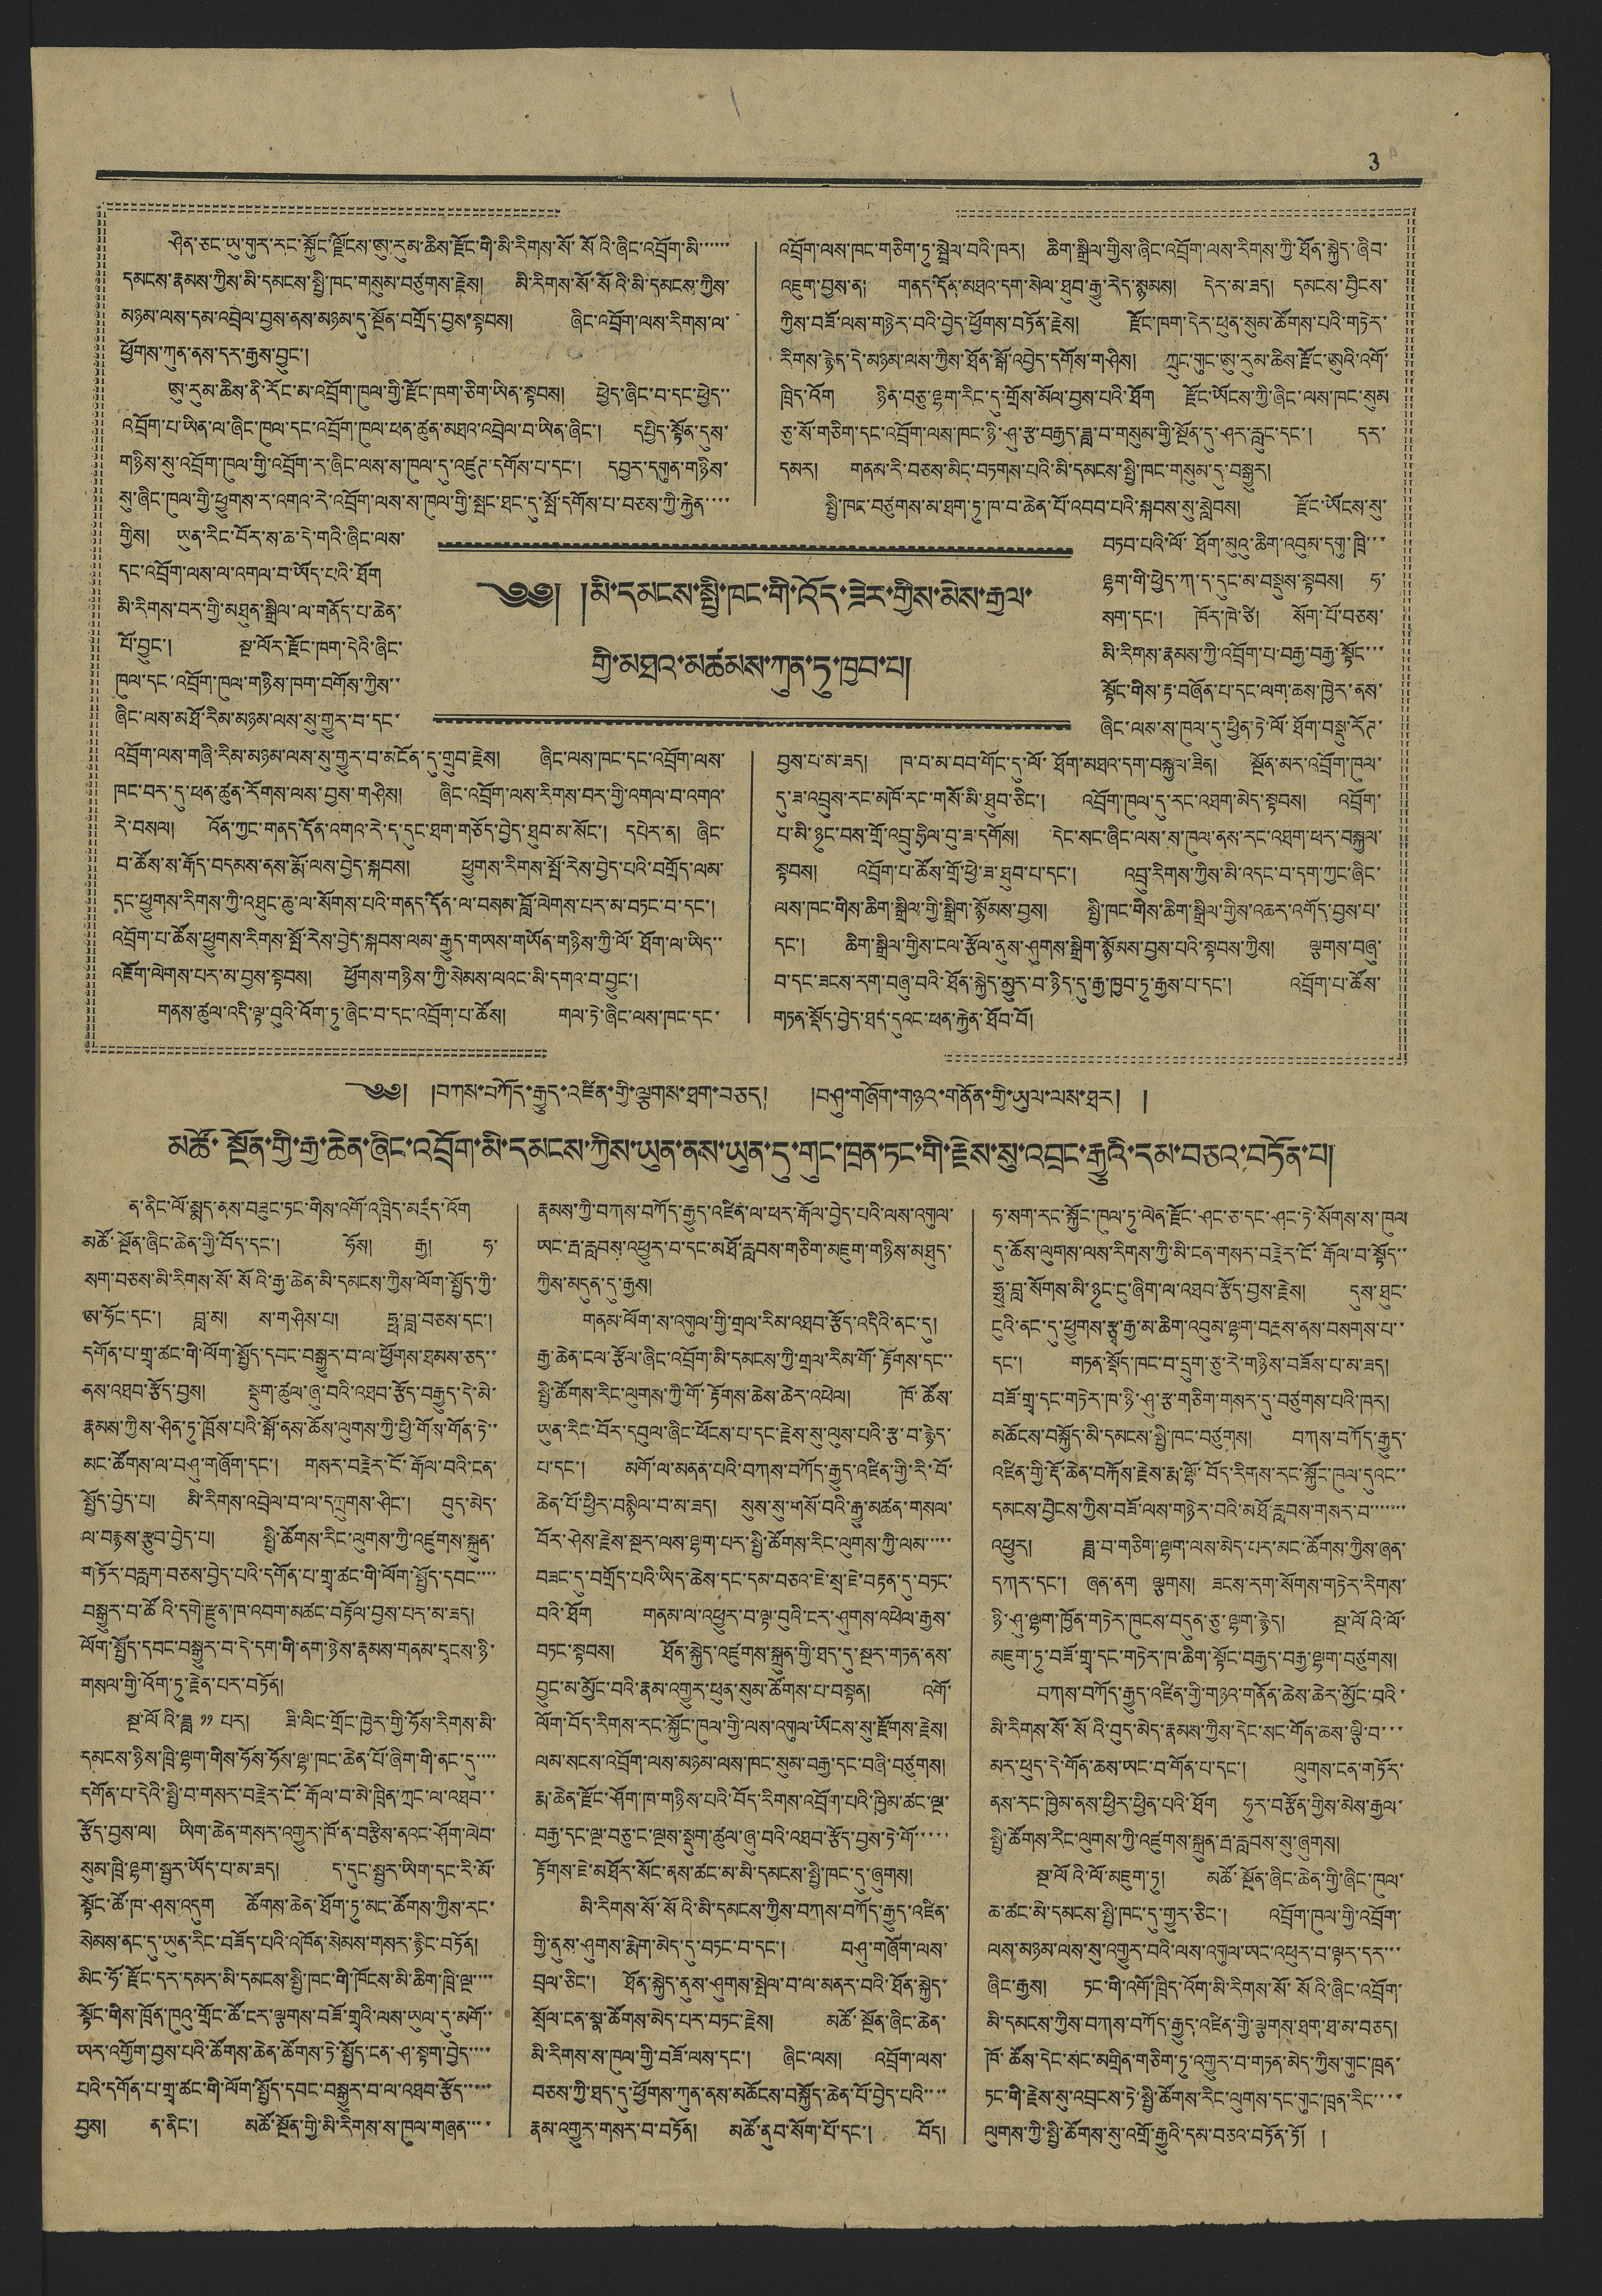3
༄༅། །མི་དམངས་སྤྱི་ཁང་གི་འོད་ཟེར་གྱིས་མེས་རྒྱལ་
གྱི་མཐའ་མཚམས་ཀུན་ཏུ་ཁྱབ་པ།
ཤིན་ཅང་ཨུ་གུར་རང་སྐྱོང་ལྗོངས་ཨུ་རུམ་ཆིས་རྫོང་གི་མི་རིགས་སོ་སོའི་ཞིང་འབྲོག་མི་་་་་་
དམངས་རྣམས་ཀྱིས་མི་དམངས་སྤྱི་ཁང་གསུམ་བཙུགས་རྗེས། མི་རིགས་སོ་སོའི་མི་དམངས་ཀྱིས་
མཉམ་ལས་དམ་འབྲེལ་བྱས་ནས་མཉམ་དུ་སྔོན་བགྲོད་བྱས་སྟབས། ཞིང་འབྲོག་ལས་རིགས་ལ་
ཕྱོགས་ཀུན་ནས་དར་རྒྱས་བྱུང་།
ཨུ་རུམ་ཆིས་ནི་རོང་མ་འབྲོག་ཁུལ་གྱི་རྫོང་ཁག་ཅིག་ཡིན་སྟབས། ཕྱེད་ཞིང་བ་དང་ཕྱེད་་
འབྲོག་པ་ཡིན་ལ་ཞིང་ཁུལ་དང་འབྲོག་ཁུལ་ཕན་ཚུན་མཐའ་འབྲེལ་བ་ཡིན་ཞིང་། དཔྱིད་སྟོན་དུས་
གཉིས་སུ་འབྲོག་ཁུལ་གྱི་འབྲོག་ར་ཞིང་ལས་ས་ཁུལ་དུ་འཛུཊ་དགོས་པ་དང་། དབྱར་དགུན་གཉིས་
སུ་ཞིང་ཁུལ་གྱི་ཕྱུགས་ར་འགའ་རེ་འབྲོག་ལས་ས་ཁུལ་གྱི་སྤང་ཐང་དུ་སྤོ་དགོས་པ་བཅས་ཀྱི་རྐྱེན་་་་
གྱིས། ཡུན་རིང་བོར་ས་ཆ་དེ་གའི་ཞིང་ལས་
དང་འབྲོག་ལས་ལ་འགལ་བ་ཡོད་པའི་ཐོག
མི་རིགས་བར་གྱི་མཐུན་སྒྲིལ་ལ་གནོད་པ་ཆེན་
པོ་བྱུང་། སྔ་ལོར་རྫོང་ཁག་དེའི་ཞིང་
ཁུལ་དང་འབྲོག་ཁུལ་གཉིས་ཁག་བགོས་ཀྱིས་་
ཞིང་ལས་མཐོ་རིམ་མཉམ་ལས་སུ་གྱུར་བ་དང་
འབྲོག་ལས་གཞི་རིམ་མཉམ་ལས་སུ་གྱུར་བ་མངོན་དུ་གྲུབ་རྗེས། ཞིང་ལས་ཁང་དང་འབྲོག་ལས་
ཁང་བར་དུ་ཕན་ཚུན་རོགས་ལས་བྱས་གཤིས། ཞིང་འབྲོག་ལས་རིགས་བར་གྱི་འགལ་བ་འགའ་
རེ་བསལ། འོན་ཀྱང་གནད་དོན་འགའ་རེ་ད་དུང་ཐག་གཅོད་བྱེད་ཐུབ་མ་སོང་། དཔེར་ན། ཞིང་
བ་ཚོས་ས་རྒོད་བདམས་ནས་རྨོ་ལས་བྱེད་སྐབས། ཕྱུགས་རིགས་སྤོ་རེས་བྱེད་པའི་བགྲོད་ལམ་
དང་ཕྱུགས་རིགས་ཀྱི་འཐུང་ཆུ་ལ་སོགས་པའི་གནད་དོན་ལ་བསམ་བློ་ལེགས་པར་མ་བཏང་བ་དང་།
འབྲོག་པ་ཚོས་ཕྱུགས་རིགས་སྤོ་རེས་བྱེད་སྐབས་ལམ་རྒྱུད་གཡས་གཡོན་གཉིས་ཀྱི་ལོ་ཐོག་ལ་ཡིད་་
འཇོག་ལེགས་པར་མ་བྱས་སྟབས། ཕྱོགས་གཉིས་ཀྱི་སེམས་ལའང་མི་དགའ་བ་བྱུང་།
གནས་ཚུལ་འདི་ལྟ་བུའི་འོག་ཏུ་ཞིང་བ་དང་འབྲོག་པ་ཚོས། གལ་ཏེ་ཞིང་ལས་ཁང་དང་
འབྲོག་ལས་ཁང་གཅིག་ཏུ་སྦྲེལ་བའི་ཁར། ཆིག་སྒྲིལ་གྱིས་ཞིང་འབྲོག་ལས་རིགས་ཀྱི་ཐོན་སྐྱེད་ཞིབ་
འཇུག་བྱས་ན། གནད་དོན་མཐའ་དག་སེལ་ཐུབ་རྒྱུ་རེད་སྙམས། དེར་མ་ཟད། དམངས་བྱིངས་
ཀྱིས་བཟོ་ལས་གཉེར་་བའི་བྱེད་ཕྱོགས་བཏོན་རྗེས། རྫོང་ཁག་དེར་ཕུན་སུམ་ཚོགས་པའི་གཏེར་
རིགས་རྙེད་དེ་མཉམ་ལས་ཀྱིས་ཐོན་སྒོ་འབྱེད་དགོས་གཤིས། ཀྲུང་གུང་ཨུ་རུམ་ཆིས་རྫོང་ཨུའི་འགོ་
ཁྲིད་འོག ཉིན་བཅུ་ལྷག་རིང་དུ་གྲོས་མོལ་བྱས་པའི་ཐོག རྫོང་ཡོངས་ཀྱི་ཞིང་ལས་ཁང་སུམ
ཅུ་སོ་གཅིག་དང་འབྲོག་ལས་ཁང་ཉི་ཤུ་རྩ་བརྒྱད་ཟླ་བ་གསུམ་གྱི་སྔོན་དུ་ཤར་རླུང་དང་། དར་
དམར། གནམ་རི་བཅས་མིང་བཏགས་པའི་མི་དམངས་སྤྱི་ཁང་གསུམ་དུ་བསྒྱུར།
སྤྱི་ཁང་བཙུགས་མ་ཐག་ཏུ་ཁ་བ་ཆེན་པོ་འབབ་པའི་སྐབས་སུ་སླེབས། རྫོང་ཡོངས་སུ་
བཏབ་པའི་ལོ་ཐོག་མུའུ་ཆིག་འབུམ་དགུ་ཁྲི་་་
ལྷག་གི་ཕྱེད་ཀ་ད་དུང་མ་བསྡུས་སྟབས། ཧ་
སག་དང་། ཁོར་ཁེ་ཙི། སོག་པོ་བཅས་
མི་རིགས་རྣམས་ཀྱི་འབྲོག་པ་བརྒྱ་བརྒྱ་སྟོང་་་
སྟོང་གིས་རྟ་བཞོན་པ་དང་ལག་ཆས་ཁྱེར་ནས་
ཞིང་ལས་ས་ཁུལ་དུ་ཕྱིན་ཏེ་ལོ་ཐོག་བསྡུ་རོཊ་
བྱས་པ་མ་ཟད། ཁ་བ་མ་བབ་གོང་དུ་ལོ་ཐོག་མཐའ་དག་བསྐྱལ་ཟིན། སྔོན་མར་འབྲོག་ཁུལ་
དུ་ཟ་འབྲུས་རང་མཁོ་རང་གསོ་མི་ཐུབ་ཅིང་། འབྲོག་ཁུལ་དུ་རང་འཐག་མེད་སྟབས། འབྲོག་
པ་མི་ཉུང་བས་གྲོ་འབྲུ་ཧྲིལ་བུ་ཟ་དགོས། དེང་སང་ཞིང་ལས་ས་ཁུལ་ནས་རང་འཐག་ཕར་བསྐྱལ་
སྟབས། འབྲོག་པ་ཚོས་གྲོ་ཕྱེ་ཟ་ཐུབ་པ་དང་། འབྲུ་རིགས་ཀྱིས་མི་འདང་བ་དག་ཀྱང་ཞིང་
ལས་ཁང་གིས་ཆིག་སྒྲིལ་གྱི་སྒྲིག་སྙོམས་བྱས། སྤྱི་ཁང་གིས་ཆིག་སྒྲིལ་གྱིས་འཆར་འགོད་བྱས་པ་
དང་། ཆིག་སྒྲིལ་གྱིས་ངལ་རྩོལ་ནུས་ཤུགས་སྒྲིག་སྙོམས་བྱས་པའི་སྟབས་ཀྱིས། ལྕགས་བཞུ་
བ་དང་ཟངས་རག་བཞུ་བའི་ཐོན་སྐྱེད་མྱུར་བ་ཉིད་དུ་རྒྱ་ཁྱབ་ཏུ་རྒྱས་པ་དང་། འབྲོག་པ་ཚོས་
གཏན་སྡོད་བྱེད་ཐད་དུའང་ཕན་རྐྱེན་ཐོབ་བོ།
༄༅། །བཀས་བཀོད་རྒྱུད་འཛིན་གྱི་ལྕགས་ཐག་བཅད། །བཤུ་གཞོག་གཉའ་གནོན་གྱི་ཡུལ་ལས་ཐར། །
མཚོ་སྔོན་གྱི་རྒྱ་ཆེན་ཞིང་འབྲོག་མི་དམངས་ཀྱིས་ཡུན་ནས་ཡུན་དུ་གུང་ཁྲན་ཏང་གི་རྗེས་སུ་འབྲང་རྒྱུའི་དམ་བཅའ་བཏོན་པ།
ན་ནིང་ལོ་སྨད་ནས་བཟུང་ཏང་གིས་འོག་འཁྲིད་མཛད་འོག
མཚོ་སྔོན་ཞིང་ཆེན་གྱི་བོད་དང་། ཧོས། རྒྱ། ཧ་
སག་བཅས་མི་རིགས་སོ་སོའི་རྒྱ་ཆེན་མི་དམངས་ཀྱིས་ལོག་སྤྱོད་ཀྱི་
ཨ་ཧོང་དང་། བླ་མ། ས་གཤིས་པ། ཧྥ་བླ་བཅས་དང་།
དགོན་པ་གྲྭ་ཚང་གི་ལོག་སྤྱོད་དབང་བསྒྱུར་བ་ལ་ཕྱོགས་ཐམས་ཅད་་
ནས་འཐབ་རྫོད་བྱས། སྡུག་ཚུལ་ཞུ་བའི་འཐབ་རྩོད་བརྒྱུད་དེ་མི་
རྣམས་ཀྱིས་ཤིན་ཏུ་ཁྲོས་པའི་སྒོ་ནས་ཆོས་ལུགས་ཀྱི་ཕྱི་གོས་གོན་ཏེ་་
མང་ཚོགས་ལ་བཤུ་གཞོག་དང་། གསར་བརྗེར་ངོ་རྒོལ་བིའ་ངན་
སྤྱོད་བྱེད་པ། མི་རིགས་འབྲེལ་བ་ལ་དཀྲུགས་ཤིང་། བུད་མེད་
ལ་བརྙས་རྩུབ་བྱེད་པ། སྤྱི་ཚོགས་རིང་ལུགས་ཀྱི་འཛུགས་སྐྲུན་
གཏོར་བརླག་བཅས་བྱེད་པའི་དགོན་པ་གྲྭ་ཚང་གི་ལོག་སྤྱོད་དབང་་་་
བསྒྱུར་བ་ཚོའི་དགེ་རྫུན་ཁ་འབག་མཚང་བརྟོལ་བྱས་པར་མ་ཟད།
ལོག་སྤྱོད་དབང་བསྒྱུར་བ་དེ་དག་གི་ནག་ཉེས་རྣམས་གནམ་དྭངས་ཉི་
གསལ་གྱི་འོག་ཏུ་རྗེན་པར་བཏོན།
སྔ་ལོའི་ཟླ ༡༡ པར། ཟི་ལིང་གྲོང་ཁྱེར་གྱི་ཧོས་རིགས་མི་
དམངས་ཉིས་ཁྲི་ལྷག་གིས་ཧོས་ཧོས་ལྷ་ཁང་ཆེན་པོ་ཞིག་གི་ནང་དུ་་་་
དགོན་པ་དེའི་སྤྱི་བ་གསར་བརྗེར་ངོ་རྒོལ་བ་མེ་ཁྲིན་ཀྲང་ལ་འཐབ་་
རྩོད་བྱས་ལ། ཡིག་ཆེན་གསར་འགྱུར་ཁོ་ན་བརྩིས་ནའང་ཤོག་ལེབ་
སུམ་ཁྲི་ལྷག་སྦྱར་ཡོད་པ་མ་ཟད། ད་དུང་སྦྱར་ཡིག་དང་རི་མོ་
སྟོང་ཚོ་ཁ་ཤས་འདུག ཚོགས་ཆེན་ཐོག་ཏུ་མང་ཚོགས་ཀྱིས་རང་
སེམས་ནང་དུ་ཡུན་རིང་བཟོད་པའི་འཁོན་སེམས་གསར་རྙིང་བཏོན།
མིང་ཧོ་རྫོང་དར་དམར་མི་དམངས་སྤྱི་ཁང་གི་ཁོངས་མི་ཆིག་ཁྲི་ལྔ་་་་
སྟོང་གིས་ཁྲོན་ཁུའུ་གྲོང་ཚོ་ངར་ལྕགས་བཟོ་གྲྭའི་ལས་ཡུལ་དུ་མགོ་་
ཡར་འགྱོག་བྱས་པའི་ཚོགས་ཆེན་ཚོགས་ཏེ་སྤྱོད་ངན་ཤ་སྟག་བྱེད་་་་
པའི་དགོན་པ་གྲྭ་ཚང་གི་ལོག་སྤྱོད་དབང་བསྒྱུར་བ་ལ་འཐབ་རྩོད་་་་་
བྱས། ན་ནིང་། མཚོ་སྔོན་གྱི་མི་རིགས་ས་ཁུལ་གཞན་་་་
རྣམས་ཀྱི་བཀས་བཀོད་རྒྱུད་འཛིན་ལ་ཕར་རྒོལ་བྱེད་པའི་ལས་འགུལ་
ཡང་རྦ་རླབས་འཕྱུར་བ་དང་མཐོ་རླབས་གཅིག་མཇུག་གཉིས་མཐུད་
ཀྱིས་མདུན་དུ་རྒྱས།
གནམ་ལོག་ས་འགུལ་གྱི་གྲལ་རིམ་འཐབ་རྩོད་འདིའི་ནང་དུ།
རྒྱ་ཆེན་ངལ་རྩོལ་ཞིང་འབྲོག་མི་དམངས་ཀྱི་གྲལ་རིམ་གོ་རྟོགས་དང་་
སྤྱི་ཚོགས་རིང་ལུགས་ཀྱི་གོ་རྟོགས་ཆེས་ཆེར་འཕེལ། ཁོ་ཚོས་
ཡུན་རིང་བོར་དབུལ་ཞིང་ཕོངས་པ་དང་རྗེས་སུ་ལུས་པའི་རྩ་བ་རྙེད་
པ་དང་། མགོ་ལ་མནན་པའི་བཀས་བཀོད་རྒྱུད་འཛིན་གྱི་རི་བོ་
ཆེན་པོ་ཕྱིར་བསྙིལ་བ་མ་ཟད། སུས་སུ་གསོ་བའི་རྒྱུ་མཚན་གསལ་
བོར་ཤེས་རྗེས་སྔར་ལས་ལྷག་པར་སྤྱི་ཚོགས་རིང་ལུགས་ཀྱི་ལམ་་་་་
བཟང་དུ་བགྲོད་པའི་ཡིད་ཆེས་དང་དམ་བཅའ་ཇེ་སྲ་ཇེ་བརྟན་དུ་བཏང་
བའི་ཐོག གནམ་ལ་འཕྱུར་བ་ལྟ་བུའི་ངར་ཤུགས་འཕེལ་རྒྱས་
བཏང་སྟབས། ཐོན་སྐྱེད་འཛུགས་སྐྲུན་གྱི་ཐད་དུ་སྔར་གཏན་ནས་
བྱུང་མ་མྱོང་བའི་རྣམ་འགྱུར་ཕུན་སུམ་ཚོགས་པ་བསྟན། འགོ་
ལོག་བོད་རིགས་རང་སྐྱོང་ཁུལ་གྱི་ལས་འགུལ་ཡོངས་སུ་རྫོགས་རྗེས།
ལམ་སངས་འབྲོག་ལས་མཉམ་ལས་ཁང་སུམ་བརྒྱ་དང་བཞི་བཙུགས།
རྨ་ཆེན་རྫོང་ཤོག་ཁ་གཉིས་པའི་བོད་རིགས་འབྲོག་པའི་ཁྱིམ་ཚང་ལྔ་
བརྒྱ་དང་ལྔ་བཅུ་ང་ལྔས་སྡུག་ཚུལ་ཞུ་བའི་འཐབ་རྩོད་བྱས་ཏེ་གོ་་་་་
རྟོགས་ཇེ་མཐོར་སོང་ནས་ཚང་མ་མི་དམངས་སྤྱི་ཁང་དུ་ཞུགས།
མི་རིགས་སོ་སོའི་མི་དམངས་ཀྱིས་བཀས་བཀོད་རྒྱུད་འཛིན་
གྱི་ནུས་ཤུགས་རྨེག་མེད་དུ་བཏང་བ་དང་། བཤུ་གཞོག་ལས་
བྲལ་ཅིང་། ཐོན་སྐྱེད་ནུས་ཤུགས་སྤེལ་བ་ལ་མནར་བའི་ཐོན་སྐྱེད་
སྲོལ་ངན་སྣ་ཚོགས་མེད་པར་བཏང་རྗེས། མཚོ་སྔོན་ཞིང་ཆེན་
མི་རིགས་ས་ཁུལ་གྱི་བཟོ་ལས་དང་། ཞིང་ལས། འབྲོག་ལས་
བཅས་ཀྱི་ཐད་དུ་ཕྱོགས་ཀུན་ནས་མཆོངས་བསྐྱོད་ཆེན་པོ་བྱེད་པའི་་་་
རྣམ་འགྱུར་གསར་བ་བཏོན། མཚོ་ནུབ་སོག་པོ་དང་། བོད།
ཧ་སག་རང་སྐྱོང་ཁུལ་ཏུ་ལེན་རྫོང་ཤང་ཅ་དང་ཤང་ཏེ་སོགས་ས་ཁུལ
དུ་ཆོས་ལུགས་ལས་རིགས་ཀྱི་མི་ངན་གསར་བརྗེར་ངོ་རྒོལ་བ་སྟོད་་
ཧྥུ་བླ་སོགས་མི་ཉུང་ངུ་ཞིག་ལ་འཐབ་རྩོད་བྱས་རྗེས། དུས་ཐུང་
ངུའི་ནང་དུ་ཕྱུགས་རྩྭ་རྒྱ་མ་ཆིག་འབུམ་ལྷག་བརྔས་ནས་བསགས་པ་་
དང་། གཏན་སྡོད་ཁང་བ་དྲུག་ཅུ་རེ་གཉིས་བཟོས་པ་མ་ཟད།
བཟོ་གྲྭ་དང་གཏེར་ཁ་ཉི་ཤུ་རྩ་གཅིག་གསར་དུ་བཙུགས་པའི་ཁར།
མཆོངས་བསྐྱོད་མི་དམངས་སྤྱི་ཁང་བཙུགས། བཀས་བཀོད་རྒྱུད་
འཛིན་གྱི་རྡོ་ཆེན་བརྐོས་རྗེས་རྨ་ལྷོ་བོད་རིགས་རང་སྐྱོང་ཁུལ་དུའང་་
དམངས་བྱིངས་ཀྱིས་བཟོ་ལས་གཉེར་བའི་མཐོ་རླབས་གསར་བ་་་་་་་
འཕྱུར། ཟླ་བ་གཅིག་ལྷག་ལས་མེད་པར་མང་ཚོགས་ཀྱིས་ཞན་
དཀར་དང་། ཞན་ནག ལྕགས། ཟངས་རག་སོགས་གཏེར་རིགས་
ཉི་ཤུ་ལྷག་ཁྱོན་གཏེར་ཁུངས་བདུན་ཅུ་ལྷག་རྙེད། སྔ་ལོའི་ལོ་
མཇུག་ཏུ་བཟོ་གྲྭ་དང་གཏེར་ཁ་ཆིག་སྟོང་བརྒྱད་བརྒྱ་ལྷག་བཙུགས།
བཀས་བཀོད་རྒྱུད་འཛིན་གྱི་གཉའ་གནོན་ཆེས་ཆེར་མྱོང་བའི་
མི་རིགས་སོ་སོའི་བུད་མེད་རྣམས་ཀྱིས་དེང་སང་གོན་ཆས་ལྕི་བ་་་
མར་ཕུད་དེ་གོན་ཆས་ཡང་བ་གོན་པ་དང་། ལུགས་ངན་གཏོར་
ནས་རང་ཁྱིམ་ནས་ཕྱིར་ཕྱིན་པའི་ཐོག ཧུར་བརྩོན་གྱིས་མེས་རྒྱལ་
སྤྱི་ཚོགས་རིང་ལུགས་ཀྱི་འཛུགས་སྐྲུན་རྦ་རླབས་སུ་ཞུགས།
སྔ་ལོའི་ལོ་མཇུག་ཏུ། མཚོ་སྔོན་ཞིང་ཆེན་གྱི་ཞིང་ཁུལ་
ཆ་ཚང་མི་དམངས་སྤྱི་ཁང་དུ་གྱུར་ཅིང་། འབྲོག་ཁུལ་གྱི་འབྲོག་
ལས་མཉམ་ལས་སུ་འགྱུར་བའི་ལས་འགུལ་ཡང་འཕུར་བ་ལྟར་དར་་་
ཞིང་རྒྱས། ཏང་གི་འགོ་ཁྲིད་འོག་མི་རིགས་སོ་སོའི་ཞིང་འབྲོག་
མི་དམངས་ཀྱིས་བཀས་བཀོད་རྒྱུད་འཛིན་གྱི་ལྕགས་ཐག་ཐ་མ་བཅད།
ཁོ་ཚོས་དེང་སང་མགྲིན་གཅིག་ཏུ་འགྱུར་བ་གཏན་མེད་ཀྱིས་གུང་ཁྲན་
ཏང་གི་རྗེས་སུ་འབྲངས་ཏེ་སྤྱི་ཚོགས་རིང་ལུགས་དང་གུང་ཁྲན་རིང་་་་
ལུགས་ཀྱི་སྤྱི་ཚོགས་སུ་འགྲོ་རྒྱུའི་དམ་བཅའ་བཏོན་ཏོ། །
